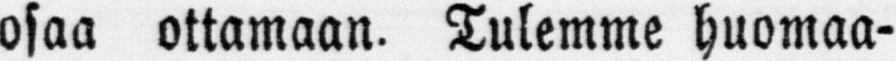osaa ottamaan. Tulemme huomaa-
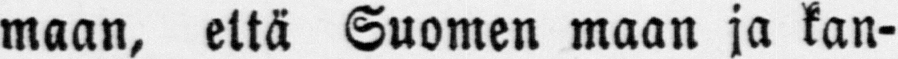maan, että Suomen maan ja kan-
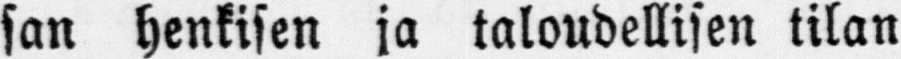san henkisen ja taloudellisen tilan
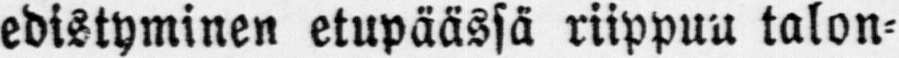edistyminen etupäässä riippuu talon-
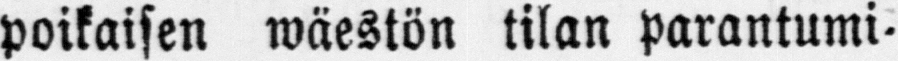poikaisen wäestön tilan parantumi-
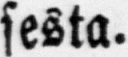sesta.
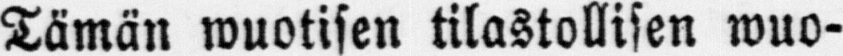Tämän wuotisen tilastollisen wuo-
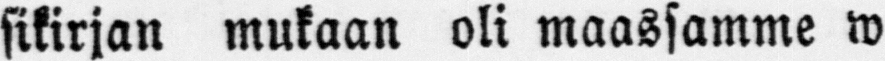sikirjan mukaan oli maassamme w.
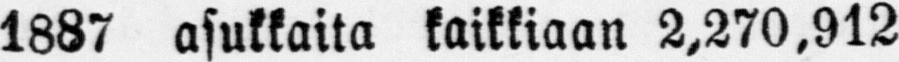1887 asukkaita kaikkiaan 2,270,912
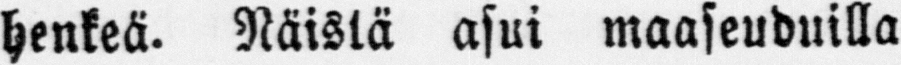henkeä. Näistä asui maaseuduilla
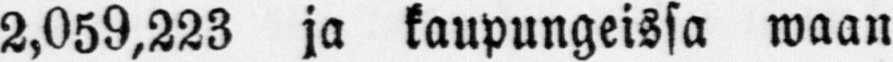2,059,223 ja kaupungeissa waan
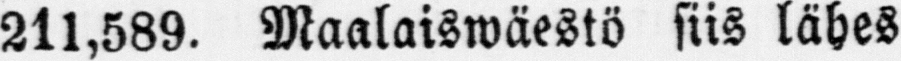211,589. Maalaiswäestö siis lähes
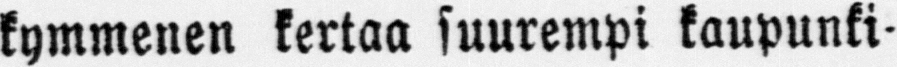kymmenen kertaa suurempi kaupunki-
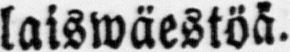laiswäestöä.
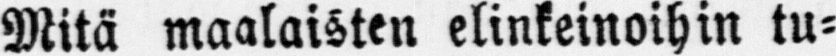Mitä maalaisten elinkeinoihin tu-
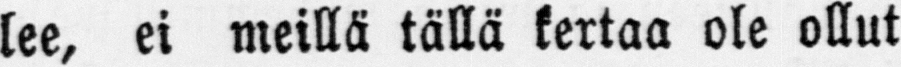lee, ei meillä tällä kertaa ole ollut
